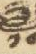༡༠
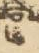༦
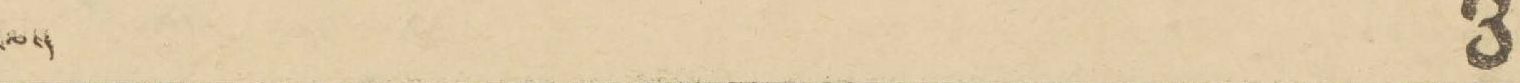ལ་། 3
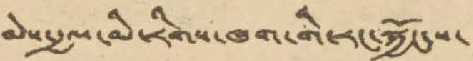མེས་རྒྱལ་མི་རིགས་ཁག་གི་རང་སྐྱོང་ས་
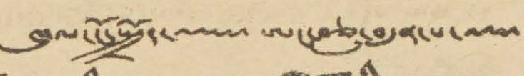ཁུལ་ངོ་སྤྲོད་ལམ་ ཨང་བཅུ་བདུན་པ་ལམ་
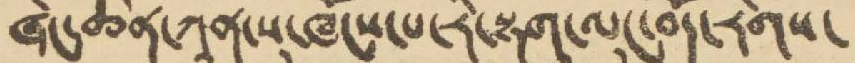ཞིང་ཆེན་ཀཱན་སུ་ཁོངས་པ་རི་སྟག་ལུང་བོད་རིགས་
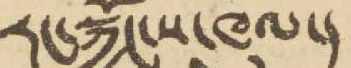རང་སྐྱོང་ས་ཁུལ་།
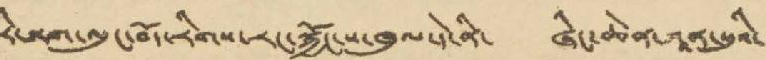པ་རི་སྟག་ལུང་བོད་རིགས་རང་སྐྱོང་ས་ཁུལ་དེ་ནི་ ཞིང་ཆེན་ཀཱན་སུའི་
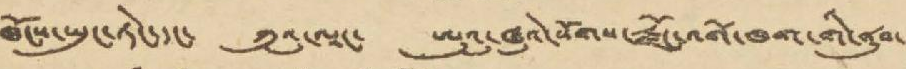ཁོངས་ཡུང་ཏེང་དང་ ཀུའུ་ལཱང་ ཨུའུ་ཝུའེ་སོགས་རྫོང་འགོ་ཁག་གི་ནུབ་
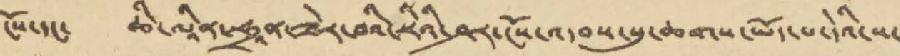ངོས་དང་ ཆི་ལཱིན་ཧྲཱན་ཟེར་བའི་རིའི་ཤར་ངོས་འདབས་སུ་ཆགས་ཡོད་པ་དེའི་ས་
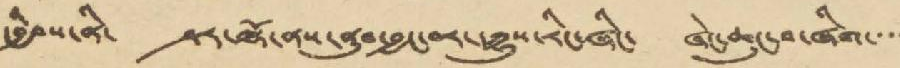དབྱིབས་ནི་ ཤར་ལྷོ་ནས་ནུབ་བྱང་བར་དཀྱུས་རིང་ཞིང་ ཞེང་ཆུང་བ་ཞིག་་་་
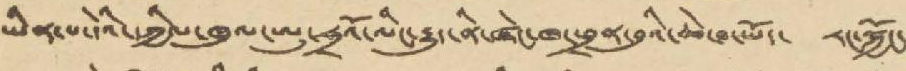ཡིན་པ་དེའི་དཀྱིལ་ཁུལ་ཨུ་ཧྲའོ་ལིང་རྒྱུད་ནི་ཞེང་ཁ་ཕྲན་བུའི་ཆེ་བ་ཡོད་ རང་སྐྱོང་
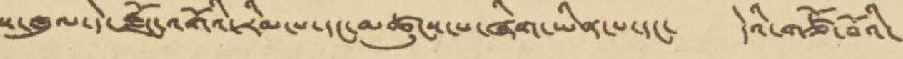ས་ཁུལ་དེ་རྫོང་འགོའི་རིམ་པ་དང་མཚུངས་པ་ཞིག་ཡིན་པ་དང་ དེའི་གཙོ་བོའི་
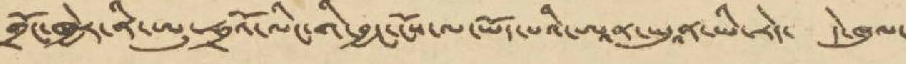གྲོང་ཁྱེར་ནི་ཨུ་ཧྲའོ་ལིང་གི་བྱང་ངོས་ལ་ཡོད་པའི་ཨཱན་ཡུན་ཡི་རེད་ དེ་ཁུལ་
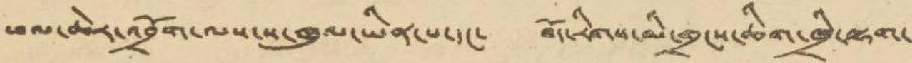ཕལ་ཆེར་འབྲོག་ལས་ས་ཁུལ་ཡིན་པ་དང་ བོད་རིགས་མི་གྲངས་ཆིག་ཁྲི་ལྷག་
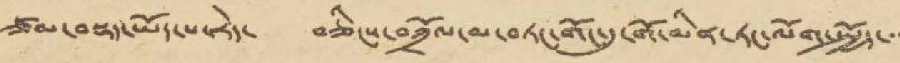ཙམ་བསྡད་ཡོད་པ་རེད་ བཅིངས་བཀྲོལ་མ་བཏང་གོང་དུ་གོ་མིན་ཏང་ལོག་སྤྱོད་་་
